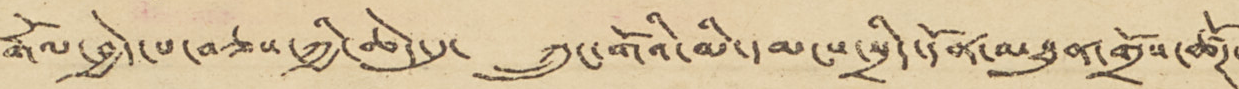རྒོལ་བྱེད་པ་བཅས་ཀྱི་ཆེད་དུ་ ཀྲུང་གོའི་མི་དམངས་སྲིད་དོན་མཐུན་གྲོས་ཚོཊ་
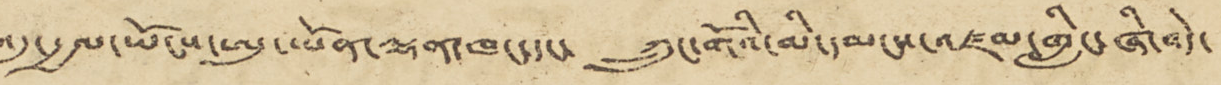འདུ་རྒྱལ་ཡོངས་ཨུ་ཡོན་ལྷན་ཁང་དང་ ཀྲུང་གོའི་མི་དམངས་འཛམ་གླིང་ཞི་བདེ་
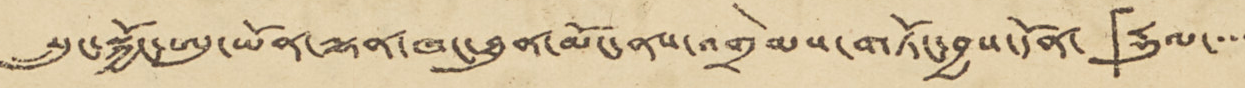སྲུང་སྐྱོང་ཨུ་ཡོན་ལྷན་ཁང་ཐུན་མོང་ནས་འགྲེམས་གཏོང་བྱས་དོན་ 「རྡུལ་་་་
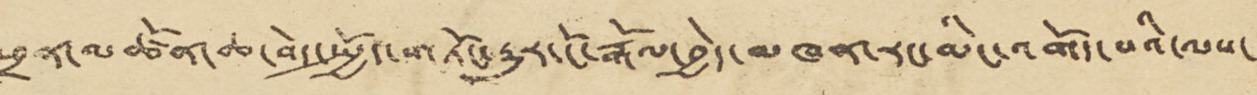ཕྲན་མཚོན་ཆ་བེད་སྤྱོད་གཏོང་རྒྱུར་ངོ་རྒོལ་བྱེད་མཁན་རང་མིང་འགོད་པའི་ལས་
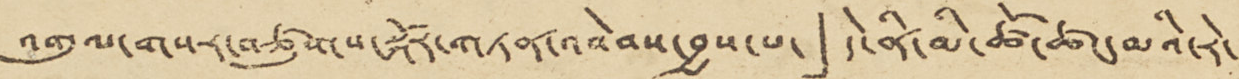འགུལ་གསར་བཙུགས་སྐོར་གཏན་འབེབས་བྱས་པ་」 དེ་ནི་མི་ཚོ་ཚང་མའི་རེ་
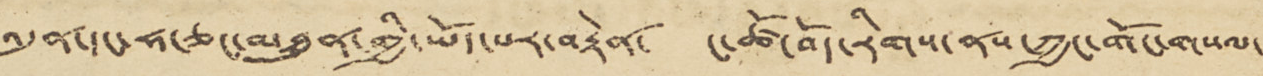འདུན་དང་ཧ་ཅང་མཐུན་གྱི་ཡོད་པར་བརྟེན་ ང་ཚོ་བོད་རིགས་ནས་ཀྱང་གོང་གསལ་
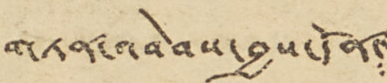གཏན་འབེབས་བྱས་དོན་
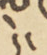དེ་
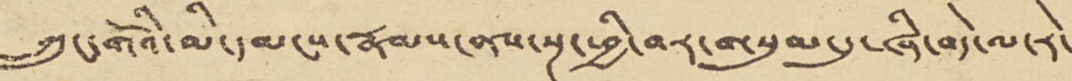ཀྲུང་གོའི་མི་དམངས་རྣམས་ནས་སྔ་ཕྱི་བར་གསུམ་དུ་ཞི་བདེ་ལ་རེ་
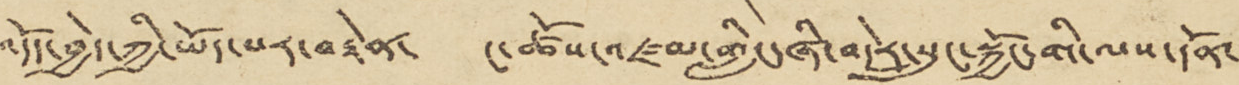འདོད་བྱེད་ཀྱི་ཡོད་པར་བརྟེན་ ང་ཚོས་འཛམ་གླིང་ཞི་བདེར་སྲུང་སྐྱོང་གི་ལས་དོན་
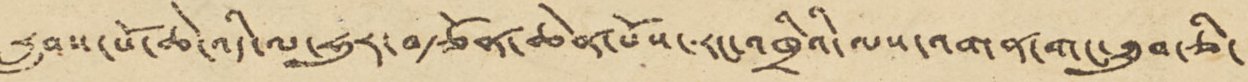རླབས་པོ་ཆེ་འདི་ལ་ཧུར་བརྩོན་ཆེན་པོས་རང་འཁྲིའི་ལས་འགན་གང་ཐུབ་ཅི་
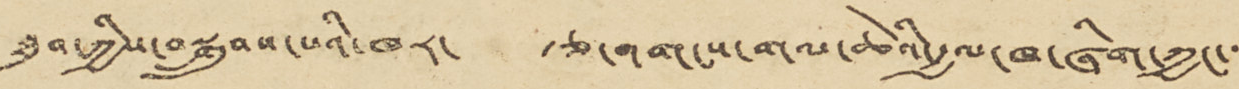ཐུབ་ཀྱིས་བསྒྲུབས་པའི་ཁར་ རྩ་འགངས་གལ་ཆེའི་རྒྱལ་ཁ་ཞིག་ཀྱང་་་
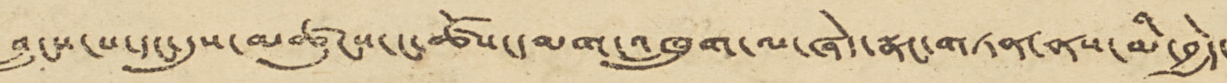བླངས་པ་དང་དུས་མཚུངས་ང་ཚོས་དམག་འཁྲུག་ལ་ཞེད་སྣང་གཏན་ནས་མི་བྱེད་
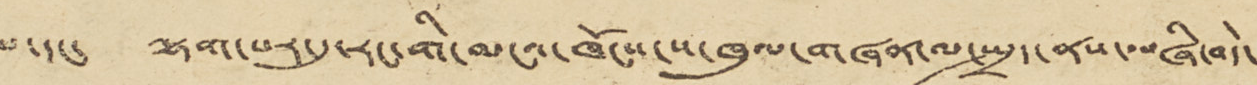པ་དང་ ལྷག་པར་དུ་རང་གི་མངའ་ཁོངས་ས་ཁུལ་གཞན་ལ་སྤྲད་ནས་བཞི་བདེ་
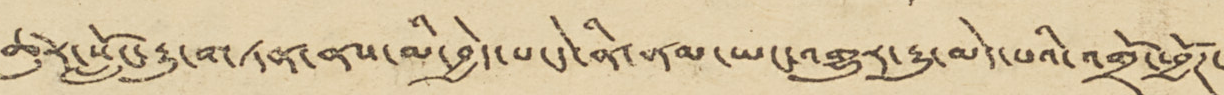ཚུར་སློང་རྒྱུ་གཏན་ནས་མི་བྱེད་པ་དེ་ནི་ནམ་ཡང་འགྱུར་རྒྱུ་མེད་པའི་འགྲོ་ཕྱོཊ་་
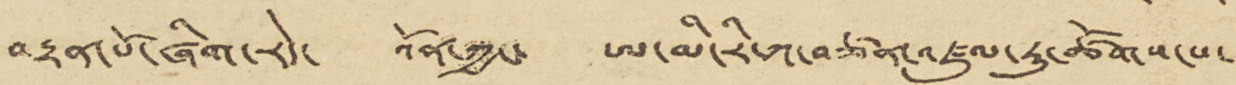བརྟན་པོ་ཞིག་རེད་ འོན་ཀྱང་ ཨ་མི་རི་ཀ་བཙན་འཛུལ་རུ་ཚོགས་པ་
